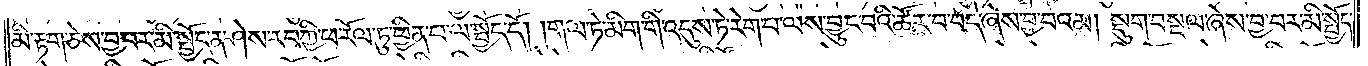མི་རྟག་ཅེས་བྱ་བར་མི་སྤྱོད་ན་ཤེས་རབ་ཀྱི་ཕ་རོལ་ཏུ་ཕྱིན་པ་ལ་སྤྱོད་དོ། །གལ་ཏེ་མིག་གི་འདུས་ཏེ་རེག་པ་ལས་བྱུང་བའི་ཚོར་བ་བདེ་ཞེས་བྱ་བའམ། སྡུག་བསྔལ་ཞེས་བྱ་བར་མི་སྤྱོད་
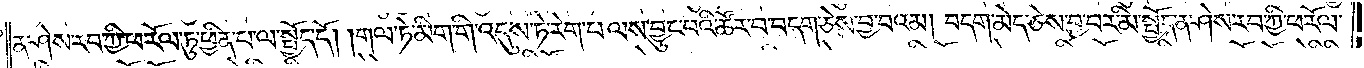ན་ཤེས་རབ་ཀྱི་ཕ་རོལ་ཏུ་ཕྱིན་པ་ལ་སྤྱོད་དོ། །གལ་ཏེ་མིག་གི་འདུས་ཏེ་རེག་པ་ལས་བྱུང་བའི་ཚོར་བ་བདག་ཅེས་བྱ་བའམ། བདག་མེད་ཅེས་བྱ་བར་མི་སྤྱོད་ན་ཤེས་རབ་ཀྱི་ཕ་རོལ་
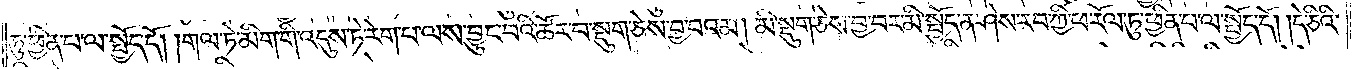ཏུ་ཕྱིན་པ་ལ་སྤྱོད་དོ། །གལ་ཏེ་མིག་གི་འདུས་ཏེ་རེག་པ་ལས་བྱུང་བའི་ཚོར་བ་སྡུག་ཅེས་བྱ་བའམ། མི་སྡུག་ཅེས་བྱ་བར་མི་སྤྱོད་ན་ཤེས་རབ་ཀྱི་ཕ་རོལ་ཏུ་ཕྱིན་པ་ལ་སྤྱོད་དོ། །དེ་ཅིའི་
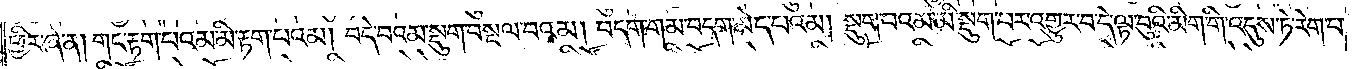ཕྱིར་ཞེ་ན། གང་རྟག་པའམ་མི་རྟག་པའམ། བདེ་བའམ་སྡུག་བསྔལ་བའམ། བདག་གམ་བདག་མེད་པའམ། སྡུག་པའམ་མི་སྡུག་པར་འགྱུར་བ་དེ་ལྟ་བུའི་མིག་གི་འདུས་ཏེ་རེག་པ་
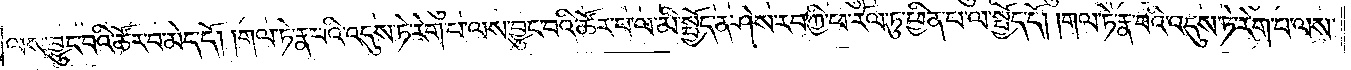ལས་བྱུང་བའི་ཚོར་བ་མེད་དོ། །གལ་ཏེ་རྣ་བའི་འདུས་ཏེ་རེག་པ་ལས་བྱུང་བའི་ཚོར་བ་ལ་མི་སྤྱོད་ན་ཤེས་རབ་ཀྱི་ཕ་རོལ་ཏུ་ཕྱིན་པ་ལ་སྤྱོད་དོ། །གལ་ཏེ་རྣ་བའི་འདུས་ཏེ་རེག་པ་ལས་
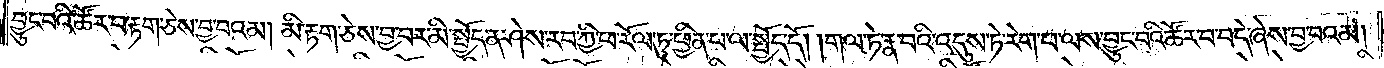བྱུང་བའི་ཚོར་བ་རྟག་ཅེས་བྱ་བའམ། མི་རྟག་ཅེས་བྱ་བར་མི་སྤྱོད་ན་ཤེས་རབ་ཀྱི་ཕ་རོལ་ཏུ་ཕྱིན་པ་ལ་སྤྱོད་དོ། །གལ་ཏེ་རྣ་བའི་འདུས་ཏེ་རེག་པ་ལས་བྱུང་བའི་ཚོར་བ་བདེ་ཞེས་བྱ་བའམ།
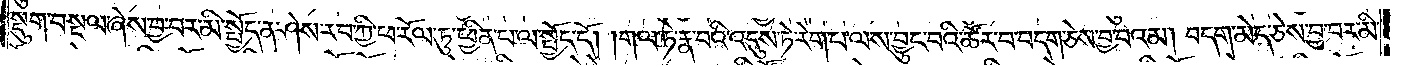སྡུག་བསྔལ་ཞེས་བྱ་བར་མི་སྤྱོད་ན་ཤེས་རབ་ཀྱི་ཕ་རོལ་ཏུ་ཕྱིན་པ་ལ་སྤྱོད་དོ། །གལ་ཏེ་རྣ་བའི་འདུས་ཏེ་རེག་པ་ལས་བྱུང་བའི་ཚོར་བ་བདག་ཅེས་བྱ་བའམ། བདག་མེད་ཅེས་བྱ་བར་མི་
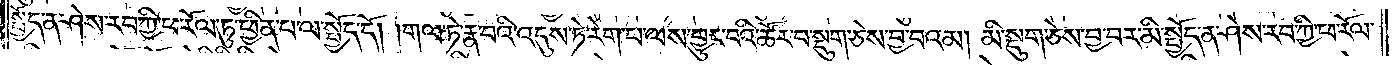སྤྱོད་ན་ཤེས་རབ་ཀྱི་ཕ་རོལ་ཏུ་ཕྱིན་པ་ལ་སྤྱོད་དོ། །གལ་ཏེ་རྣ་བའི་འདུས་ཏེ་རེག་པ་ལས་བྱུང་བའི་ཚོར་བ་སྡུག་ཅེས་བྱ་བའམ། མི་སྡུག་ཅེས་བྱ་བར་མི་སྤྱོད་ན་ཤེས་རབ་ཀྱི་ཕ་རོལ་
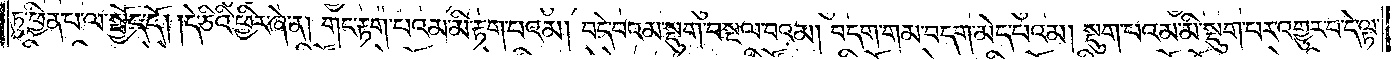ཏུ་ཕྱིན་པ་ལ་སྤྱོད་དོ། །དེ་ཅིའི་ཕྱིར་ཞེ་ན། གང་རྟག་པའམ་མི་རྟག་པའམ། བདེ་བའམ་སྡུག་བསྔལ་བའམ། བདག་གམ་བདག་མེད་པའམ། སྡུག་པའམ་མི་སྡུག་པར་འགྱུར་བ་དེ་ལྟ་
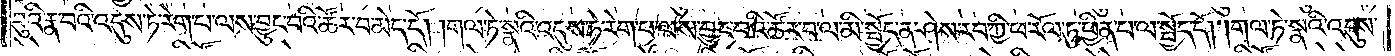བུའི་རྣ་བའི་འདུས་ཏེ་རེག་པ་ལས་བྱུང་བའི་ཚོར་བ་མེད་དོ། །གལ་ཏེ་སྣའི་འདུས་ཏེ་རེག་པ་ལས་བྱུང་བའི་ཚོར་བ་ལ་མི་སྤྱོད་ན་ཤེས་རབ་ཀྱི་ཕ་རོལ་ཏུ་ཕྱིན་པ་ལ་སྤྱོད་དོ། །གལ་ཏེ་སྣའི་འདུས་
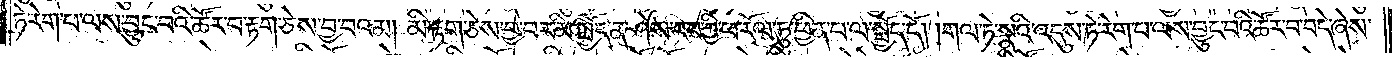ཏེ་རེག་པ་ལས་བྱུང་བའི་ཚོར་བ་རྟག་ཅེས་བྱ་བའམ། མི་རྟག་ཅེས་བྱ་བར་མི་སྤྱོད་ན་ཤེས་རབ་ཀྱི་ཕ་རོལ་ཏུ་ཕྱིན་པ་ལ་སྤྱོད་དོ། །གལ་ཏེ་སྣའི་འདུས་ཏེ་རེག་པ་ལས་བྱུང་བའི་ཚོར་བ་བདེ་ཞེས་
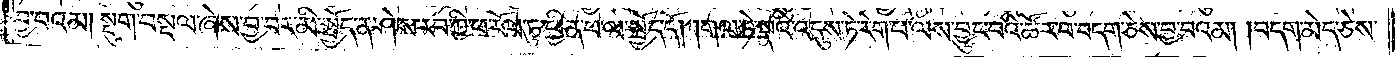བྱ་བའམ། སྡུག་བསྔལ་ཞེས་བྱ་བར་མི་སྤྱོད་ན་ཤེས་རབ་ཀྱི་ཕ་རོལ་ཏུ་ཕྱིན་པ་ལ་སྤྱོད་དོ། །གལ་ཏེ་སྣའི་འདུས་ཏེ་རེག་པ་ལས་བྱུང་བའི་ཚོར་བ་བདག་ཅེས་བྱ་བའམ། བདག་མེད་ཅེས་
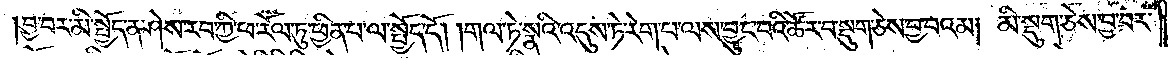བྱ་བར་མི་སྤྱོད་ན་ཤེས་རབ་ཀྱི་ཕ་རོལ་ཏུ་ཕྱིན་པ་ལ་སྤྱོད་དོ། །གལ་ཏེ་སྣའི་འདུས་ཏེ་རེག་པ་ལས་བྱུང་བའི་ཚོར་བ་སྡུག་ཅེས་བྱ་བའམ། མི་སྡུག་ཅེས་བྱ་བར་
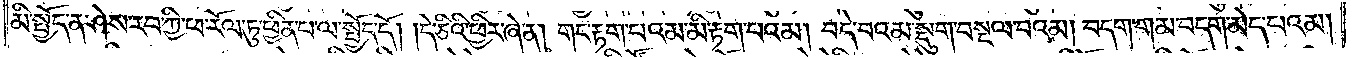མི་སྤྱོད་ན་ཤེས་རབ་ཀྱི་ཕ་རོལ་ཏུ་ཕྱིན་པ་ལ་སྤྱོད་དོ། །དེ་ཅིའི་ཕྱིར་ཞེ་ན། གང་རྟག་པའམ་མི་རྟག་པའམ། བདེ་བའམ་སྡུག་བསྔལ་བའམ། བདག་གམ་བདག་མེད་པའམ།
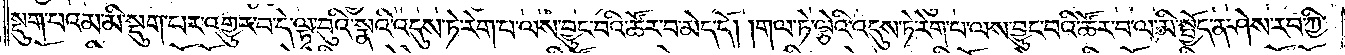སྡུག་པའམ་མི་སྡུག་པར་འགྱུར་བ་དེ་ལྟ་བུའི་སྣའི་འདུས་ཏེ་རེག་པ་ལས་བྱུང་བའི་ཚོར་བ་མེད་དོ། །གལ་ཏེ་ལྕེའི་འདུས་ཏེ་རེག་པ་ལས་བྱུང་བའི་ཚོར་བ་ལ་མི་སྤྱོད་ན་ཤེས་རབ་ཀྱི་
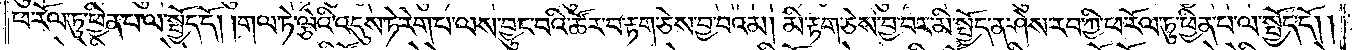ཕ་རོལ་ཏུ་ཕྱིན་པ་ལ་སྤྱོད་དོ། །གལ་ཏེ་ལྕེའི་འདུས་ཏེ་རེག་པ་ལས་བྱུང་བའི་ཚོར་བ་རྟག་ཅེས་བྱ་བའམ། མི་རྟག་ཅེས་བྱ་བར་མི་སྤྱོད་ན་ཤེས་རབ་ཀྱི་ཕ་རོལ་ཏུ་ཕྱིན་པ་ལ་སྤྱོད་དོ། །
